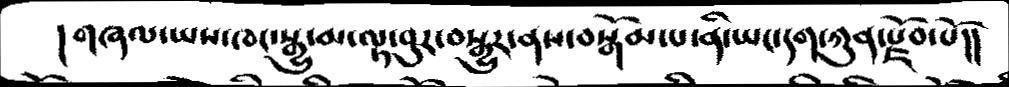།གཞལ་ཡས་ཁང་སྒྱུ་མ་ལྟ་བུར་བསྒྱུར་ནས་བསྒོམ་པ་ནི་ཡང་དག་ཀུན་རྫོབ་པོ།།
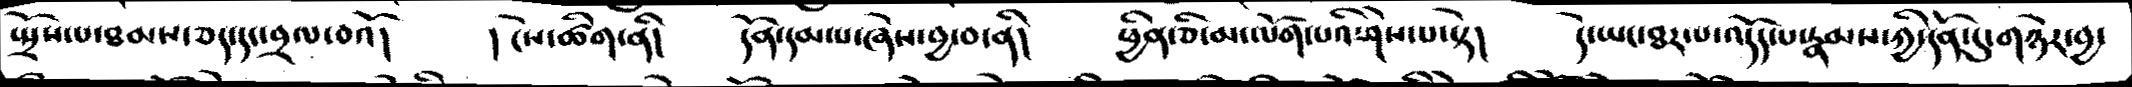སྤྲོས་པ་ཐམས་ཅད་དང་བྲལ་བའོ།   །ངེས་ཚིག་ནི།   དོན་དམ་པ་ཞེས་བྱ་བ་ནི།   ཕྱིན་ཅི་མ་ལོག་པའི་ཤེས་པ་སྟེ།   དེ་ཡང་ཐར་པ་འདོད་པ་རྣམས་ཀྱི་དོན་དུ་གཉེར་བྱ་
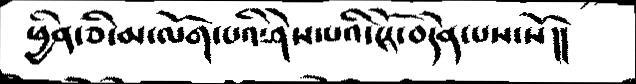ཕྱིན་ཅི་མ་ལོག་པའི་ཤེས་པའི་ངོར་བདེན་པས་སོ།།
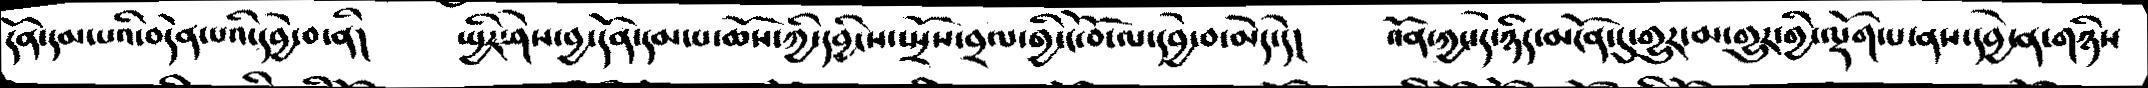དོན་དམ་པའི་བདེན་པའི་དབྱེ་བ་ནི།   སྤྱིར་ཤེས་བྱ་དོན་དམ་པ་ཆོས་ཀྱི་དབྱིངས་སྤྲོས་བྲལ་གྱི་ངོ་བོ་ལ་དབྱེ་བ་མེད་དེ།    འོན་ཀྱང་དེ་ཉིད་མངོན་དུ་གྱུར་མ་གྱུར་གྱི་ལྡོག་པ་ནས་དབྱེ་ན་གཉིས
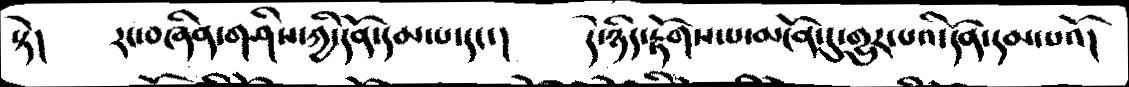སྟེ།   རང་བཞིན་གཤིས་ཀྱི་དོན་དམ་པ་དང་།   དེ་ཉིད་རྟོགས་པ་མངོན་དུ་གྱུར་པའི་དོན་དམ་པའོ།
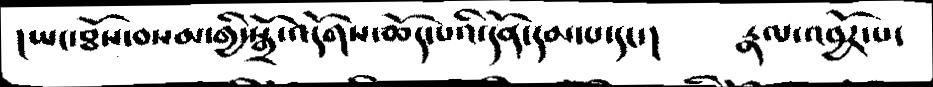།ཡང་ཐོས་བསམ་གྱི་སྒྲོ་འདོགས་ཆོད་པའི་དོན་དམ་པ་དང་།    རྣལ་འབྱོར་པ་
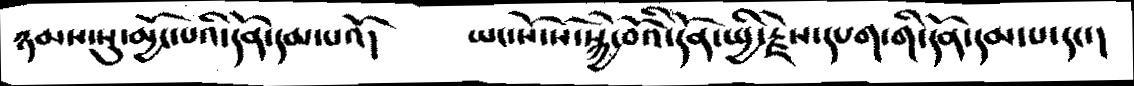ཉམས་སུ་མྱོང་པའི་དོན་དམ་པའོ།      ཡང་སོ་སོ་སྐྱེ་བོའི་དོན་སྤྱི་རྗེས་དཔག་གི་དོན་དམ་པ་དང་།
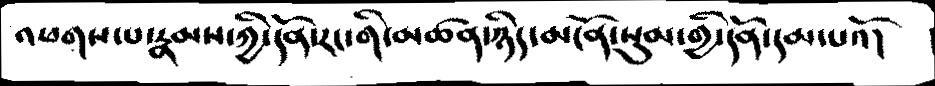འཕགས་པ་རྣམས་ཀྱི་དོན་རང་གི་མཚན་ཉིད་མངོན་སུམ་གྱི་དོན་དམ་པའོ།
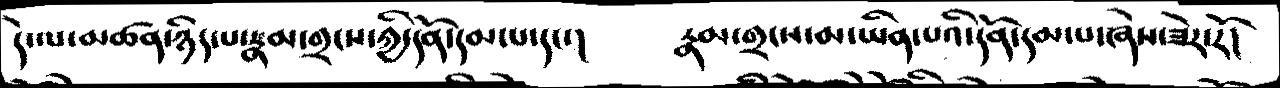དེ་ལ་མཚན་ཉིད་པ་རྣམ་གྲངས་ཀྱི་དོན་དམ་པ་དང་།   རྣམ་གྲངས་མ་ཡིན་པའི་དོན་དམ་པ་ཞེས་ཟེར་རོ།
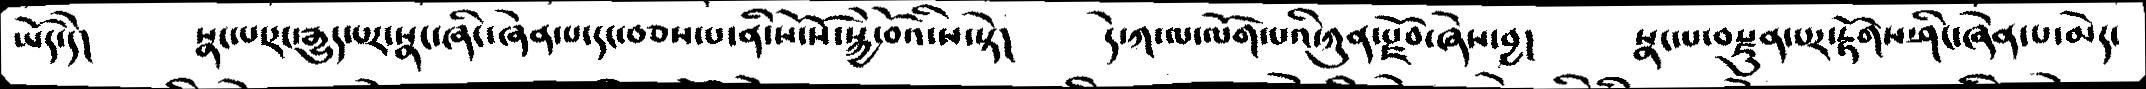ཡོད་དེ།    སྣང་པ་རང་རྒྱུད་པར་སྣང་ཞིང་ཞེན་པ་དང་བཅས་པ་ནི་སོ་སོ་སྐྱེ་བོའི་ས་སྟེ།    དེ་ཀ་ལ་ལོག་པའི་ཀུན་རྫོབ་ཞེས་བྱ།   སྣང་པ་བརྫུན་པར་རྟོགས་ཤིང་ཞེན་པ་མེད་
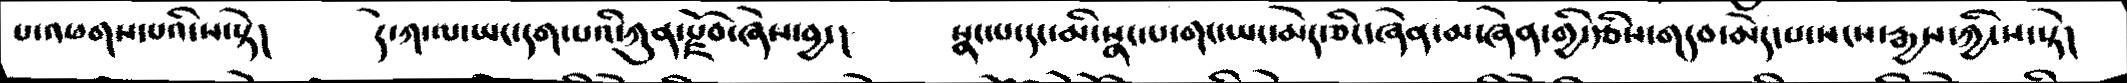པ་འཕགས་པའི་ས་སྟེ།    དེ་ཀ་ལ་ཡང་དག་པའི་ཀུན་རྫོབ་ཞེས་བྱ་།   སྣང་པ་དང་མི་སྣང་པ་གང་ཡང་མེད་ཅིང་ཞེན་མ་ཞེན་གྱི་རྩིས་གདབ་མེད་པ་སངས་རྒྱས་ཀྱི་ས་སྟེ།
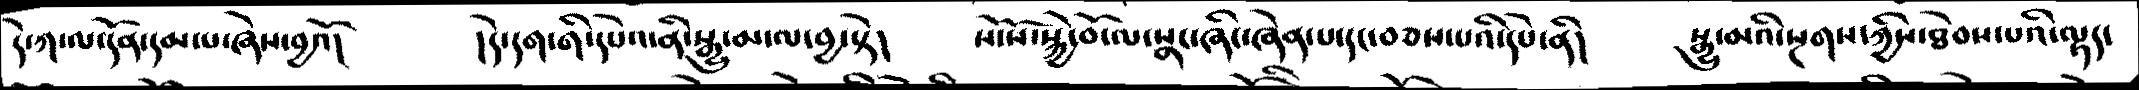དེ་ཀ་ལ་དོན་དམ་པ་ཞེས་བྱའོ།    །དེ་དག་གི་དཔེའ་ནི་སྒྱུ་མ་ལ་བྱ་སྟེ།    སོ་སོ་སྐྱེ་བོ་ལ་སྣང་ཞིང་ཞེན་པ་དང་བཅས་པའི་དཔེ་ནི།   སྒྱུ་མའི་སྔགས་ཀྱིས་ཐེབས་པའི་ལྟད་
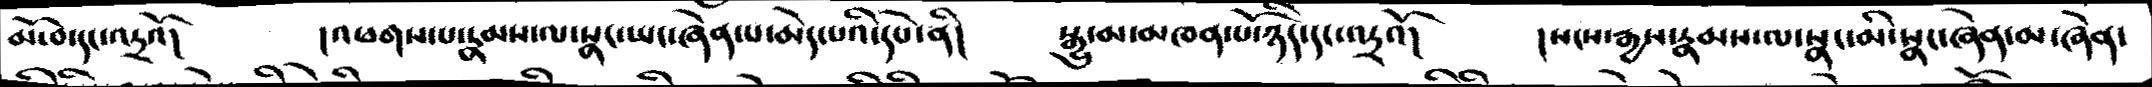མོ་བ་དང་འདྲའོ།   །འཕགས་པ་རྣམས་ལ་སྣང་ཡང་ཞེན་པ་མེད་པའི་དཔེ་ནི།    སྒྱུ་མ་མཁན་པོ་ཉིད་དང་འདྲའོ།   །སངས་རྒྱས་རྣམས་ལ་སྣང་མི་སྣང་ཞེན་མ་ཞེན་
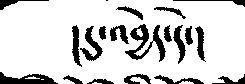།དུ་འབྱེད་དེ་།
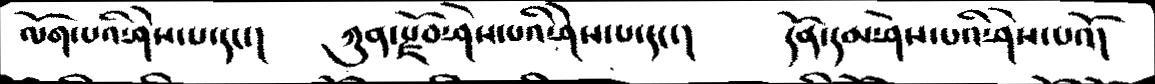ལོག་པའི་ཤེས་པ་དང་།   ཀུན་རྫོབ་ཤེས་པའི་ཤེས་པ་དང་།   དོན་དམ་ཤེས་པའི་ཤེས་པའོ།
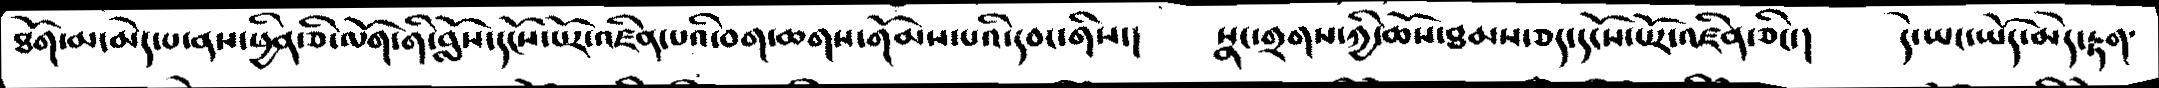ཐོག་མ་མེད་པ་ནས་ཕྱིན་ཅི་ལོག་གི་བློས་དངོས་པོར་འཛིན་པའི་བག་ཆགས་གོམས་པའི་དབང་གིས་།    སྣང་གྲགས་ཀྱི་ཆོས་ཐམས་ཅད་དངོས་པོར་འཛིན་ཅིང་།    དེ་ཡང་ཡོད་མེད་རྟག་
